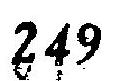249
